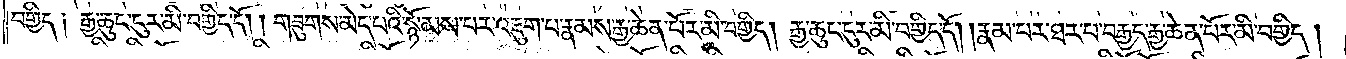བགྱིད༑ རྒྱ་ཆུང་ངུར་མི་བགྱིད་དོ། །གཟུགས་མེད་པའི་སྙོམས་པར་འཇུག་པ་རྣམས་རྒྱ་ཆེན་པོར་མི་བགྱིད། རྒྱ་ཆུང་ངུར་མི་བགྱིད་དོ། །རྣམ་པར་ཐར་པ་བརྒྱད་རྒྱ་ཆེན་པོར་མི་བགྱིད།
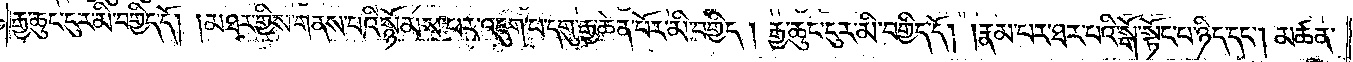རྒྱ་ཆུང་ངུར་མི་བགྱིད་དོ། །མཐར་གྱིས་གནས་པའི་སྙོམས་པར་འཇུག་པ་དགུ་རྒྱ་ཆེན་པོར་མི་བགྱིད། རྒྱ་ཆུང་ངུར་མི་བགྱིད་དོ། །རྣམ་པར་ཐར་པའི་སྒོ་སྟོང་པ་ཉིད་དང༌། མཚན་
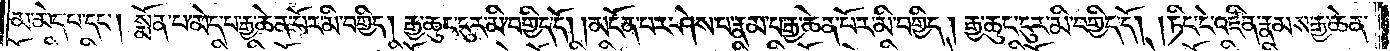མ་མེད་པ་དང༌། སྨོན་པ་མེད་པ་རྒྱ་ཆེན་པོར་མི་བགྱིད། རྒྱ་ཆུང་ངུར་མི་བགྱིད་དོ། །མངོན་པར་ཤེས་པ་རྣམ་རྒྱ་ཆེན་པོར་མི་བགྱིད། རྒྱ་ཆུང་ངུར་མི་བགྱིད་དོ། །ཏིང་ངེ་འཛིན་རྣམས་རྒྱ་ཆེན་
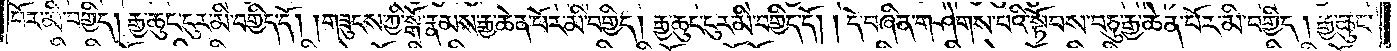པོར་མི་བགྱིད། རྒྱ་ཆུང་ངུར་མི་བགྱིད་དོ། །གཟུངས་ཀྱི་སྒོ་རྣམས་རྒྱ་ཆེན་པོར་མི་བགྱིད། རྒྱ་ཆུང་ངུར་མི་བགྱིད་དོ། །དེ་བཞིན་གཤེགས་པའི་སྟོབས་བཅུ་རྒྱ་ཆེན་པོར་མི་བགྱིད། རྒྱ་ཆུང་
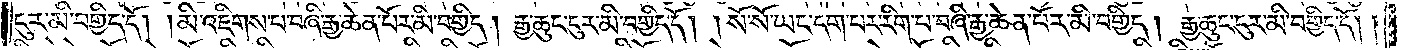ངུར་མི་བགྱིད་དོ། །མི་འཇིགས་པ་བཞི་རྒྱ་ཆེན་པོར་མི་བགྱིད། རྒྱ་ཆུང་ངུར་མི་བགྱིད་དོ། །སོ་སོ་ཡང་དག་པར་རིག་པ་བཞི་རྒྱ་ཆེན་པོར་མི་བགྱིད། རྒྱ་ཆུང་ངུར་མི་བགྱིད་དོ། །
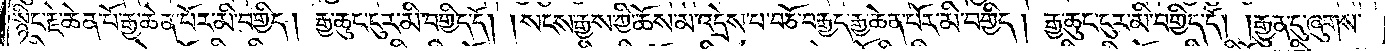སྙིང་རྗེ་ཆེན་པོ་རྒྱ་ཆེན་པོར་མི་བགྱིད། རྒྱ་ཆུང་ངུར་མི་བགྱིད་དོ། །སངས་རྒྱས་ཀྱི་ཆོས་མ་འདྲེས་པ་བཅོ་བརྒྱད་རྒྱ་ཆེན་པོར་མི་བགྱིད། རྒྱ་ཆུང་ངུར་མི་བགྱིད་དོ། །རྒྱུན་དུ་ཞུགས་
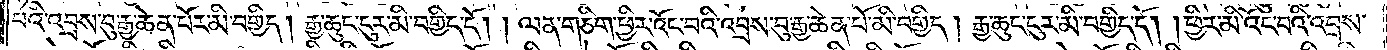པའི་འབྲས་བུ་རྒྱ་ཆེན་པོར་མི་བགྱིད། རྒྱ་ཆུང་ངུར་མི་བགྱིད། དོ། །ལན་གཅིག་ཕྱིར་འོང་བའི་འབྲས་བུ་རྒྱ་ཆེན་པོར་མི་བགྱིད། རྒྱ་ཆུང་ངུར་མི་བགྱིད་དོ། །ཕྱིར་མི་འོང་བའི་འབྲས་
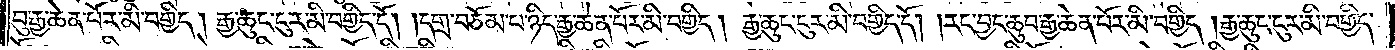བུ་རྒྱ་ཆེན་པོར་མི་བགྱིད། རྒྱ་ཆུང་ངུར་མི་བགྱིད་དོ། །དགྲ་བཅོམ་པ་ཉིད་རྒྱ་ཆེན་པོར་མི་བགྱིད། རྒྱ་ཆུང་ངུར་མི་བགྱིད་དོ། །རང་བྱང་ཆུབ་རྒྱ་ཆེན་པོར་མི་བགྱིད། རྒྱ་ཆུང་ངུར་མི་བགྱིད་
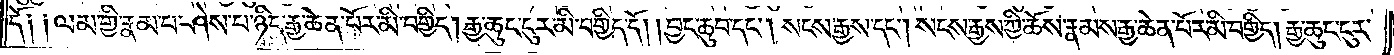དོ༑ ༑ལམ་གྱི་རྣམ་པ་ཤེས་པ་ཉིད་རྒྱ་ཆེན་པོར་མི་བགྱིད། རྒྱ་ཆུང་ངུར་མི་བགྱིད་དོ། །བྱང་ཆུབ་དང༌། སངས་རྒྱས་དང༌། སངས་རྒྱས་ཀྱི་ཆོས་རྣམས་རྒྱ་ཆེན་པོར་མི་བགྱིད། རྒྱ་ཆུང་ངུར་
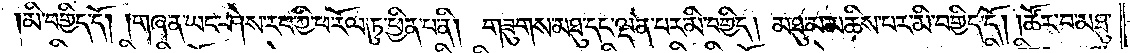མི་བགྱིད་དོ། །གཞན་ཡང་ཤེས་རབ་ཀྱི་ཕ་རོལ་ཏུ་ཕྱིན་པ་ནི། གཟུགས་མཐུ་དང་ལྡན་པར་མི་བགྱིད། མཐུ་མ་མཆིས་པར་མི་བགྱིད་དོ། །ཚོར་བ་མཐུ་
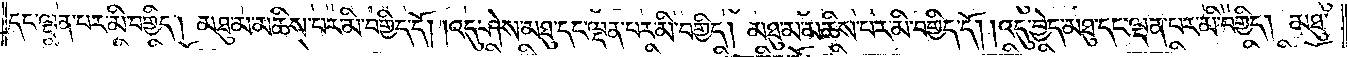དང་ལྡན་པར་མི་བགྱིད། མཐུ་མ་མཆིས་པར་མི་བགྱིད་དོ། །འདུ་ཤེས་མཐུ་དང་ལྡན་པར་མི་བགྱིད། མཐུ་མ་མཆིས་པར་མི་བགྱིད་དོ། །འདུ་བྱེད་མཐུ་དང་ལྡན་པར་མི་བགྱིད། མཐུ་
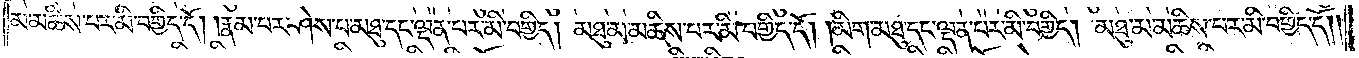མ་མཆིས་པར་མི་བགྱིད་དོ། །རྣམ་པར་ཤེས་པ་མཐུ་དང་ལྡན་པར་མི་བགྱིད། མཐུ་མ་མཆིས་པར་མི་བགྱིད་དོ། །མིག་མཐུ་དང་ལྡན་པར་མི་བགྱིད། མཐུ་མ་མཆིས་པར་མི་བགྱིད་དོ། །
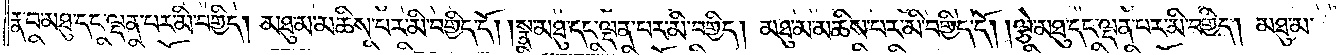རྣ་བ་མཐུ་དང་ལྡན་པར་མི་བགྱིད། མཐུ་མ་མཆིས་པར་མི་བགྱིད་དོ། །སྣ་མཐུ་དང་ལྡན་པར་མི་བགྱིད། མཐུ་མ་མཆིས་པར་མི་བགྱིད་དོ། །ལྕེ་མཐུ་དང་ལྡན་པར་མི་བགྱིད། མཐུ་མ་
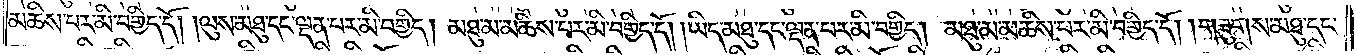མཆིས་པར་མི་བགྱིད་དོ། །ལུས་མཐུ་དང་ལྡན་པར་མི་བགྱིད། མཐུ་མ་མཆིས་པར་མི་བགྱིད་དོ། །ཡིད་མཐུ་དང་ལྡན་པར་མི་བགྱིད། མཐུ་མ་མཆིས་པར་མི་བགྱིད་དོ། །གཟུགས་མཐུ་དང་
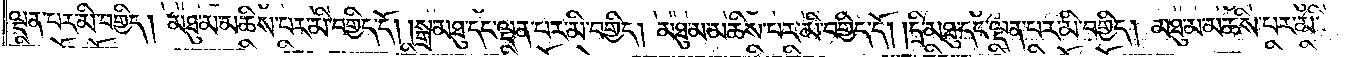ལྡན་པར་མི་བགྱིད། མཐུ་མ་མཆིས་པར་མི་བགྱིད་དོ། །སྒྲ་མཐུ་དང་ལྡན་པར་མི་བགྱིད། མཐུ་མ་མཆིས་པར་མི་བགྱིད་དོ། །དྲི་མཐུ་དང་ལྡན་པར་མི་བགྱིད། མཐུ་མ་མཆིས་པར་མི་
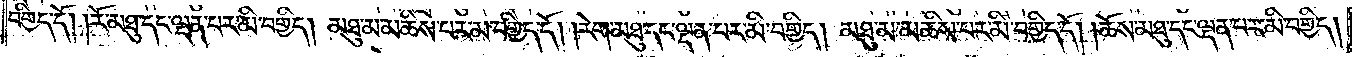བགྱིད་དོ། །རོ་མཐུ་དང་ལྡན་པར་མི་བགྱིད། མཐུ་མ་མཆིས་པར་མི་བགྱིད་དོ། །རེག་མཐུ་དང་ལྡན་པར་མི་བགྱིད། མཐུ་མ་མཆིས་པར་མི་བགྱིད་དོ། །ཆོས་མཐུ་དང་ལྡན་པར་མི་བགྱིད།
